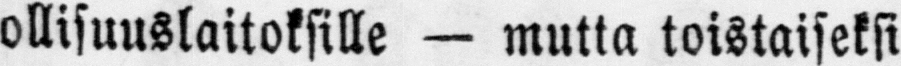ollisuuslaitoksille — mutta toistaiseksi
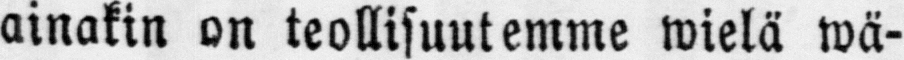ainakin on teollisuutemme wielä wä-
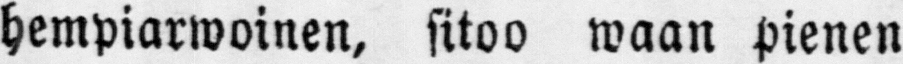hempiarwoinen, sitoo waan pienen
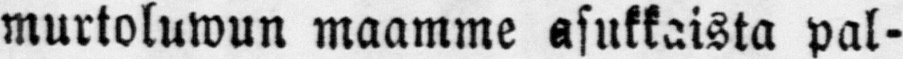murtoluwun maamme asukkaista pal-
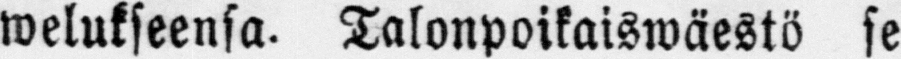welukseensa. Talonpoikaiswäestö se
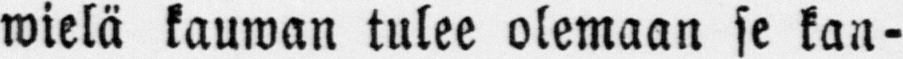wielä kauwan tulee olemaan se kan-
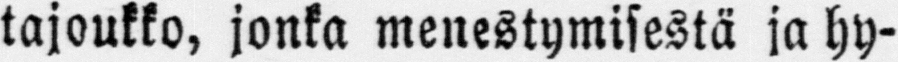tajoukko, jonka menestymisestä ja hy-
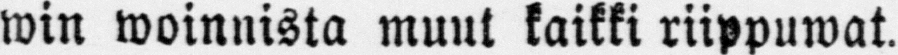win woinnista muut kaikki riippuwat.
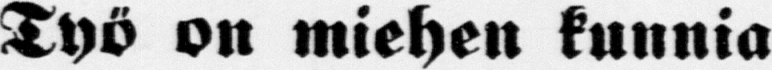Työ on miehen kunnia.
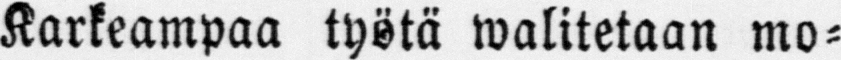Karkeampaa työtä walitetaan mo-
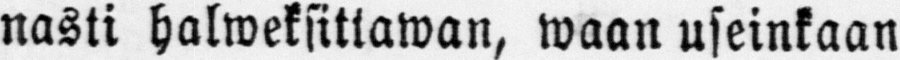nasti halweksittawan, waan useinkaan
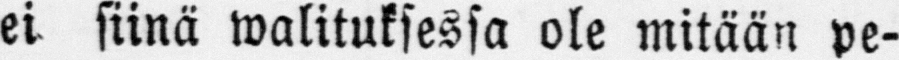ei siinä walituksessa ole mitään pe-
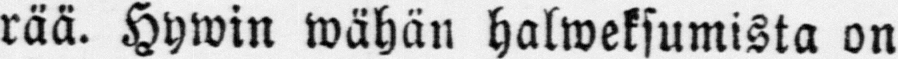rää. Hywin wähän halweksumista on
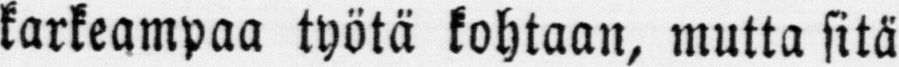karkeampaa työtä kohtaan, mutta sitä
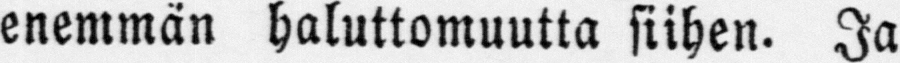enemmän haluttomuutta siihen. Ja
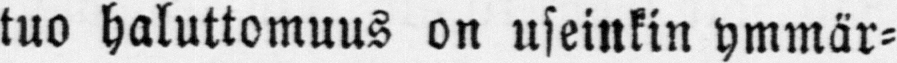tuo haluttomuus on useinkin ymmär-
